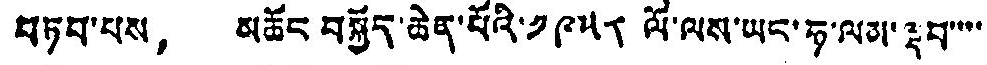བཏབ་པས， མཆོང བསྐྱོད་ཆེན་པོའི་ ༡༩༥༨ ལོ་ལས་ཡང་ཧ་ལམ་ལྡབ་་་་
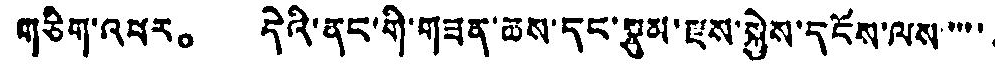གཅིག་འཕར。 དེའི་ནང་གི་གཟན་ཆས་དང་སྣུམ་རྫས་སྐྱེས་དངོས་ལས་་་་་
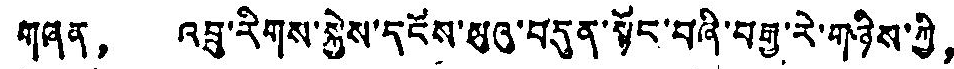གཞན， འབྲུ་རིགས་སྐྱེས་དངོས་མུའུ་བདུན་སྟོང་བཞི་བརྒྱ་རེ་གཉིས་ཀྱི，
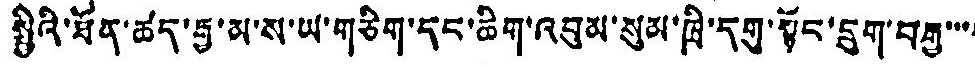སྤྱིའི་ཐོན་ཚད་རྒྱ་མ་ས་ཡ་གཅིག་དང་ཆིག་འབུམ་སུམ་ཁྲི་དགུ་སྟོང་དྲུག་བརྒྱ་་་་་
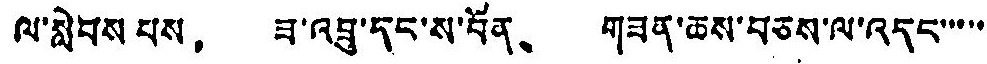ལ་སླེབས པས， ཟ་འབྲུ་དང་ས་བོན、 གཟན་ཆས་བཅས་ལ་འདང་་་་་
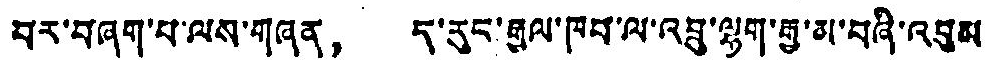བར་བཞག་པ་ལས་གཞན， ད་རུང་རྒྱལ་ཁབ་ལ་འབྲུ་ལྷག་རྒྱ་མ་བཞི་འབུམ་
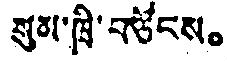སུམ་ཁྲི་བཙོངས。
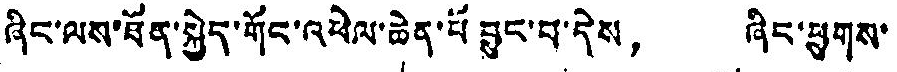ཞིང་ལས་ཐོན་སྐྱེད་གོང་འཕེལ་ཆེན་པོ བྱུང་བ་དེས， ཞིང་ཕྱུགས་
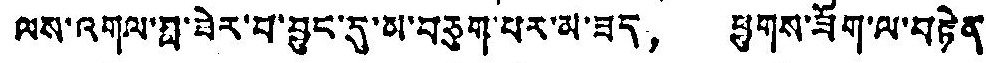ལས་འགུལ་བླ་ཟེར་བ་བྱུང་དུ་མ་བཅུག་པར་མ་ཟད， ཕྱུགས་ཟོག་ལ་བརྟེན་
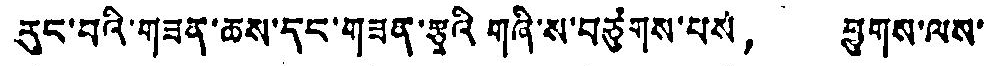རུང་བའི་གཟན་ཆས་དང་གཟན་རྩྭའི གཞི་ས་བཙུགས་པས， ཕྱུགས་ལས་
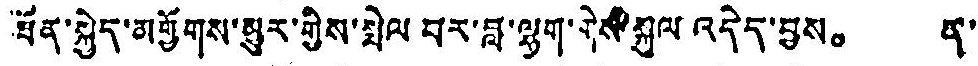ཐོན་སྐྱེད་མགྱོགས་མྱུར་གྱིས་སྤེལ བར་བླ་ལྷག་གིས་སྐུལ འདེད་བྱས。 ན་
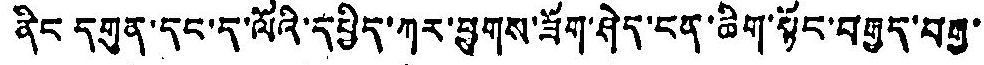ནིང དགུན་དང་ད་ལོའི་དཔྱིད་ཀར་ཕྱུགས་ཟོག་ཤེད་ངན་ཆིག་སྟོང་བརྒྱད་བརྒྱ་་
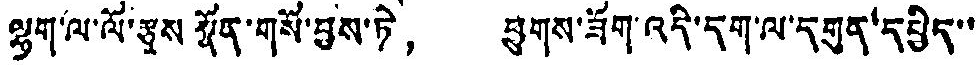ལྷག་ལ་ལོ་རྩུས སྣོན་གསོ་བྱས་ཏེ， ཕྱུགས་ཟོག་འདི་དག་ལ་དགུན་དཔྱིད་་
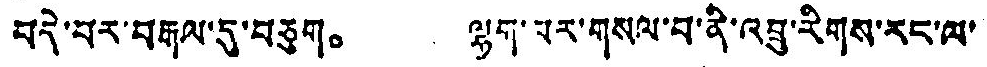བདེ་བར་བརྒལ་དུ་བཅུག。 ལྷག་པར་གསལ་བ་ནི་འབྲུ་རིགས་རང་ལ་
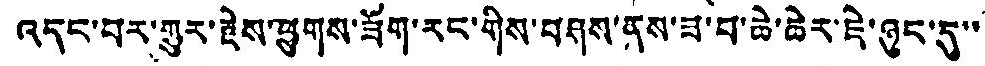འདང་བར་གྱུར་རྗེས་ཕྱུགས་ཟོག་རང་གིས་བཤུས་ནས་ཟ་བ་ཆེ་ཆེར་ཇེ་ཉུང་དུ་་་
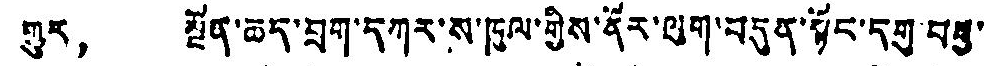གྱུར， སྔོན་ཆད་བྲག་དཀར་ས་ཁུལ་གྱིས་ནོར་ལུག་བདུན་སྟོང་དགུ་བརྒྱ་
